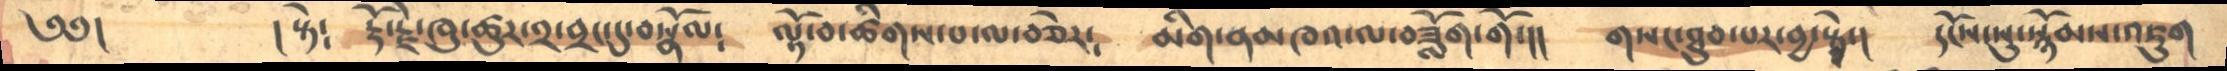༄༅།       །སྟེ༴   རྡོ་རྗེ་ཁུ་ཚུར་༢་བྲང་དུ་བསྣོལ༴    ལྟོ་བ་ཚིགས་པ་ལ་བཅེར༴    མིག་ནམཁའ་ལ་བཟློག་གོ་།།     གསང་ཐུབ་པར་བྱ་སྟེ་།   དངོས་སུ་སྙོམས་འཇུག
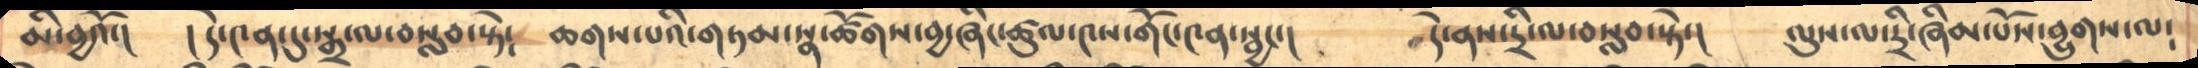མི་བྱའོ་།     །དེ་༤ན་དུ་སྒྲ་ལ་བསླབ་སྟེ།     ཆགས་པའི་གཏམ་སྣ་ཚོགས་བྱ་ཞིང་ཚུལ་༤ས་གོང་༤ན་སྦྱང་།         དེ་ནས་དྲི་ལ་བསླབ་སྟེ་།   ལུས་ལ་དྲི་ཞིམ་པོས་བྱུགས་ལ༴
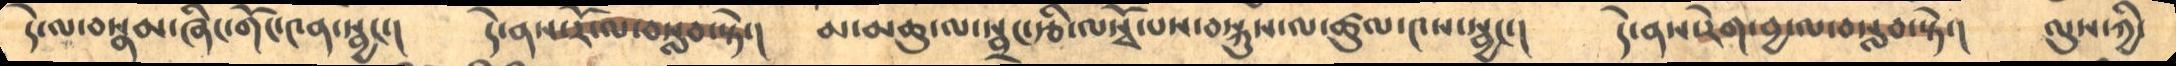དེ་ལ་བསྣམ་ཞིང་གོང་༤ན་སྦྱང་།     དེ་ནས་རོ་ལ་བསླབ་ཏེ་།     མ་མཆུ་ལ་སྦྲང་རྩི་ལསྭོ་པས་བསྐུས་ལ་ཚུལ་༤ས་སྦྱང་།     དེ་ནས་རེག་བྱ་ལ་བསླབ་སྟེ་།   ལུས་ཀྱི་
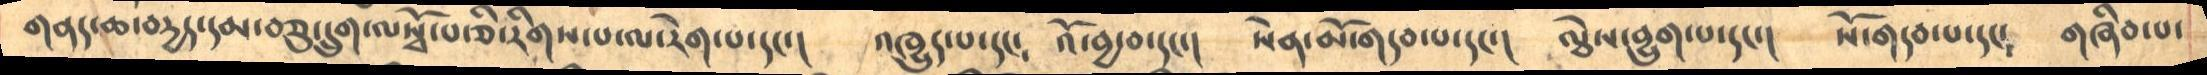གནད་ཆ་བདྱད་དམ་བཅུ་དྲུག་ལསྭོ་པ་ཅི་རིགས་པ་ལ་རེག་པ་དང་།      འཁུུད་པ་དང༴    འོ་བྱ་བ་དང་།    སེན་མོ་གདབ་པ་དང་།    ལྕེས་བྱུག་པ་དང་།   སོ་གདབ་པ་དང༴    གཞིབ་པ་
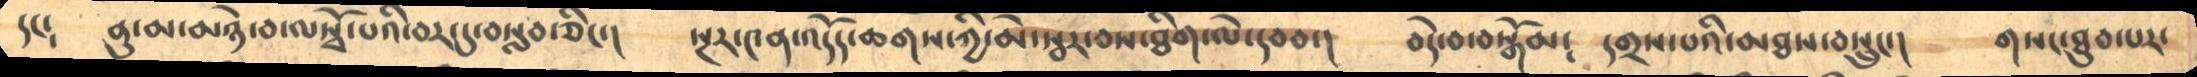དང༴    ནུ་མ་མཉེ་བ་ལསྭོ་པའི་བར་དུ་བསླབ་ཅིང་།     སྔར་༤ན་འདོད་ཆགས་ཀྱི་མེ་སྦར་བས་ཐིག་ལེ་དབབ་།    བདེ་བ་བསྒོམ༴    དགྲས་པའི་མཐས་བསྲུང་།    གསང་ཐུབ་པར་
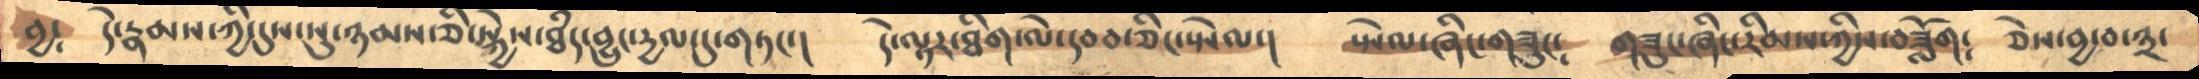བྱ༴  དེ་རྣམས་ཀྱི་དུས་སུ་ཉམས་ཅི་སྐྱེས་ཐཾད་བྱུང་དྱལ་དུ་གཏང་།     དེ་ལྟར་ཐིག་ལེ་དབབ་ཅིང་སྤེལ་།    སྤེལ་ཞིང་གཟུང༴    གཟུང་ཞིང་རིམས་ཀྱིས་བཟློག༴   ཅེས་བྱ་བ་༣་
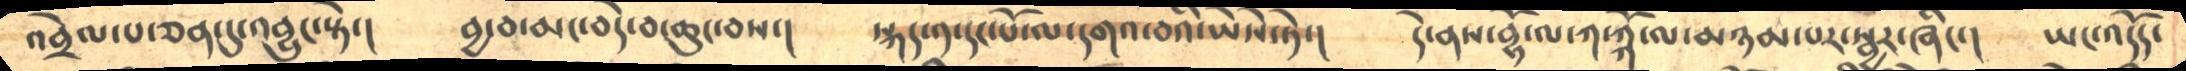འབྲེལ་པ་ཅན་དུ་འབྱུང་སྟེ་།      བྱ་བ་མང་བདེ་བ་ཆུང་བས་།     སྐད་༡་དང་པོ་ལ་དགའ་བའི་ཡཻས་ཏེ་།    དེ་ནས་བྷོ་ལ་ཀ་ཀྐོ་ལ་མཉམ་པར་སྦྱར་ཞིང་།   ཡང་འདོད་
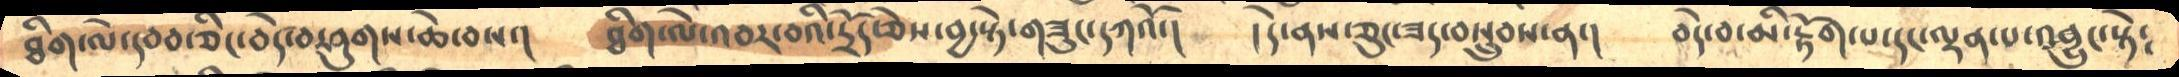ཐིག་ལེ་དབབ་ཅིང་བདེ་བ་ཤུགས་ཆེ་བས་།     ཐིག་ལེ་འབར་བའི་དྲོད་ཅེས་བྱ་སྟེ་གཟུང་དཀའོ་།     །དེ་ནས་ཅུང་ཟད་བསྲུབས་ན་།    བདེ་བ་མི་རྟོག་པ་དང་ལྡན་པ་འབྱུང་སྟེ༴
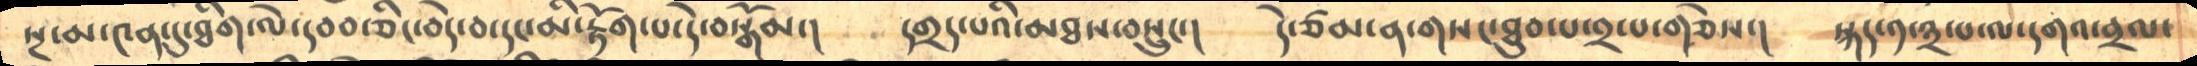སྔ་མ་༤ན་དུ་ཐིག་ལེ་དབབ་ཅིང་བདེ་བ་དང་མི་རྟོག་པ་དེ་བསྒོམ་།      དགྲད་པའི་མཐས་བསྲུང་།      དེ་ཙམ་ན་གསང་ཐུབ་པ་༢་པ་གཅེས་།    སྐད་༡་༣་པ་ལ་དགའ་བྲལ་
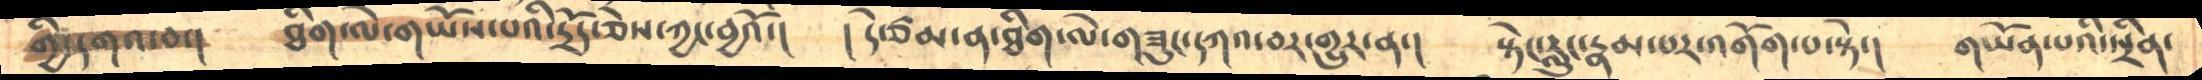གྱི་དགའ་བ་།      ཐིག་ལེ་གཡོས་པའི་དྲོད་ཅེས་ཀྱང་བྱའོ་།     །དེ་ཙམ་ན་ཐིག་ལེ་གཟུང་དཀའ་བར་གྱུར་ན་།    སྟེང་རླུང་རྣམ་པར་འགོག་པ་སྟེ་།     གཡོན་པའི་སྲིན་
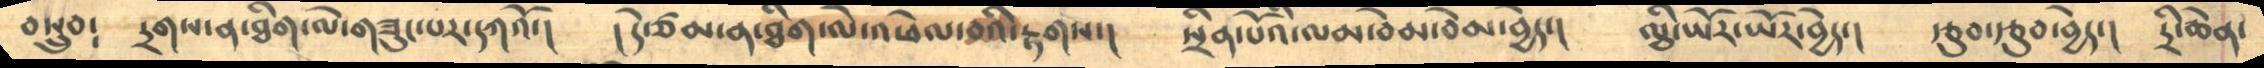བསྲུབ༴    དྲགས་ན་ཐིག་ལེ་གཟུང་པར་དཀའོ་།     །དེ་ཙམ་ན་ཐིག་ལེ་འཕེལ་བའི་རྟགས་།     སྲིན་པོའི་ལམ་བེམ་བེམ་བྱེད་།    ལྕི་ཡོར་ཡོར་བྱེད་།   རྩུབ་རྩུབ་བྱེད་།   དྲི་ཆེན་
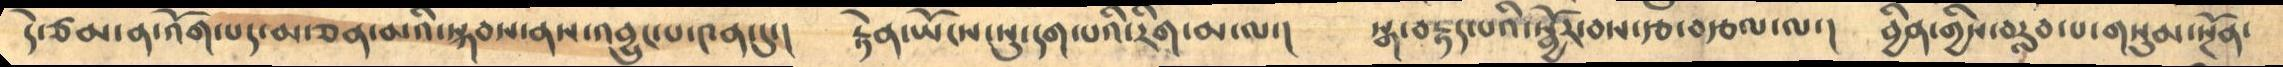དེ་ཙམ་ན་འོག་པད་མ་ཅན་མའི་སྐབས་ནས་འབྱུང་པ་༤ན་དུ་།     རྟེན་ཡོངས་སུ་དག་པའི་རིག་མ་ལ་།    སྒ་བརྟད་པའི་སྦྱོར་བས་རྩ་བརྩལ་ལ་།     བྱིན་གྱིས་བརླབ་པ་གསུམ་སྔོན་
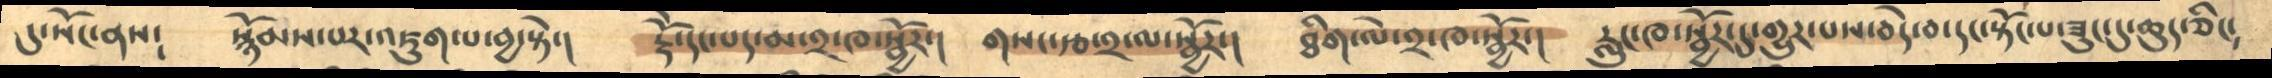དུ་སོང་ནས༴    སྙོམས་པར་འཇུག་པ་བྱ་སྟེ་།     རྡོེ་དང་པད་མ་༢་ཁ་སྦྱོར་།   གསང་རྩ་༢་ལ་སྦྱོར་།   ཐིག་ལེ་༢་ཁ་སྦྱོར་།    རླུང་ཁ་སྦྱོར་དུ་གྱུར་པས་བདེ་བ་དང་སྟོང་པ་ཟུང་དུ་ཆུད་ཅིང༴
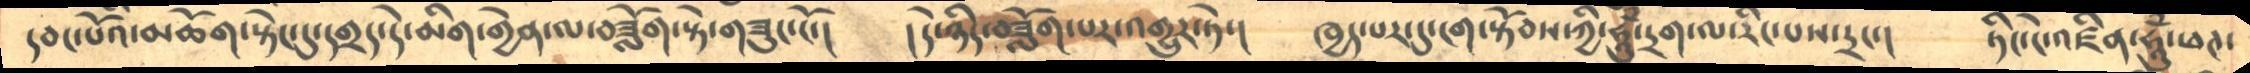དབང་པོའི་མཆོག་སྟེང་དུ་དགྲད་དེ་མིག་གྱེན་ལ་བཟློག་སྟེ་གཟུང་ངོ་།    །དེ་ཉིད་བཟློག་པར་འགྱུར་ཏེ་།    ཁྱད་པར་དུ་ངག་སྟོབས་ཀྱི་ཧཱུཾ་དྲག་ལ་རིང་པས་དྲང་།    ཏིང་ངེ་འཛིན་ཧཱུཾ་ཕཊ་
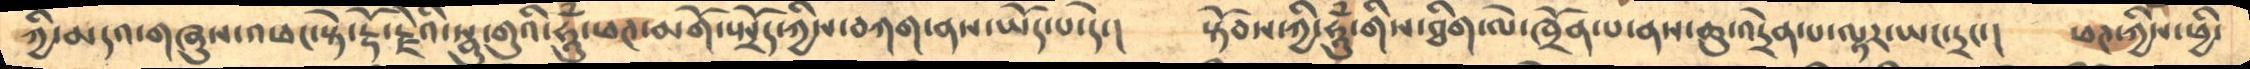ཀྱི་མདའ་གཞུས་འཕང་སྟེ་རྡོ་རྗེའི་སྦུ་གུའི་ཧཱུཾ་ཕཊ་མགོ་སྤྲོད་ཀྱིས་བཀག་ནས་ཡོད་པ་དེ་།     སྟོབས་ཀྱི་ཧཱུཾ་གིས་ཐིག་ལེ་ཁྲོན་པ་ནས་ཆུ་འདྲེན་པ་ལྟར་ཡང་དྲང་།   ཕཊ་ཀྱིས་ཕྱི་
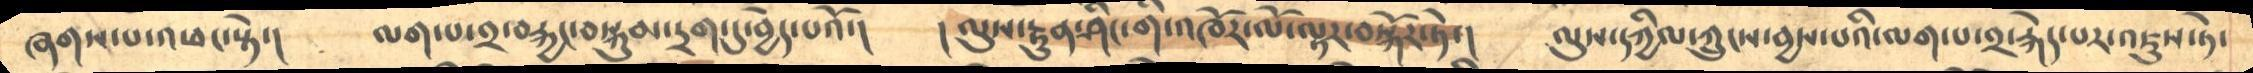ཞགས་པ་འཕང་སྟེ་།     ལག་པ་༢་བརྐྱང་བསྐུམ་དྲག་ཏུ་བྱེད་པའོ་།    །ལུས་རྟུན་ཤིང་གི་འཁོར་ལོ་ལྟར་བསྐོར་སྟེ་།     ལུས་དཀྱིལ་ཀྲུངས་བྱས་པའི་ལག་པ་༢་རྐེད་པར་འཇུས་ཏེ་
